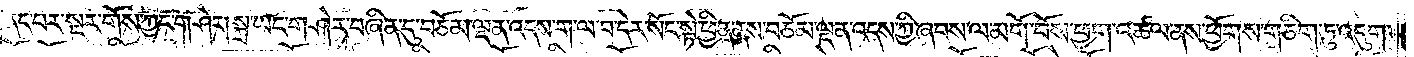ནང་པར་སྔར་གོས་ཀྱང་གཤེར་།སྐྲ་ཡང་གཤེར་བཞིན་དུ་བཅོམ་ལྡན་འདས་ག་ལ་བ་དེར་སོང་སྟེ་ཕྱིན་ནས་བཅོམ་ལྡན་འདས་ཀྱི་ཞབས་ལ་མགོ་བོས་ཕྱག་འཚལ་ནས་ཕྱོགས་གཅིག་ཏུ་འདུག་
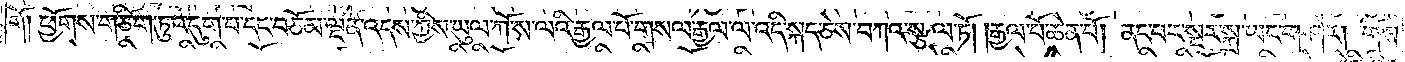གོ། ཕྱོགས་གཅིག་ཏུ་འདུག་པ་དང་བཅོམ་ལྡན་འདས་ཀྱིས་ཡུལ་ཀོ་ས་ལའི་རྒྱལ་པོ་གསལ་རྒྱལ་ལ་འདི་སྐད་ཅེས་བཀའ་སྩལ་ཏོ། །རྒྱལ་པོ་ཆེན་པོ། ནང་པར་སྔར་སྐྲ་ཡང་གཤེར། གོས་
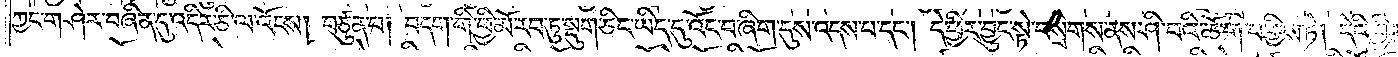ཀྱང་གཤེར་བཞིན་དུ་འདིར་ཅི་ལ་འོངས། བཙུན་པ། བདག་གི་ཕྱི་མོ་རབ་ཏུ་སྡུག་ཅིང་ཡིད་དུ་འོང་བ་ཞིག་དུས་འདས་པ་དང༌། དེ་ཕྱིར་བྱུང་སྟེ་བསྲེགས་ནས་ཤི་བའི་ཆོ་ག་བགྱིས་ཏེ། དེའི་ཕྱིར་
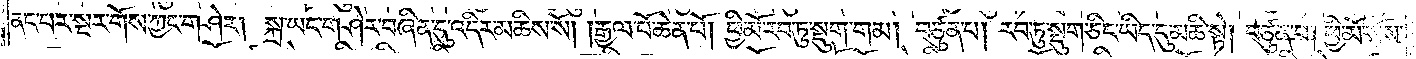ནང་པར་སྔར་གོས་ཀྱང་གཤེར་།སྐྲ་ཡང་གཤེར་བཞིན་དུ་འདིར་མཆིས་སོ། །རྒྱལ་པོ་ཆེན་པོ། ཕྱི་མོ་རབ་ཏུ་སྡུག་གམ། བཙུན་པ། རབ་ཏུ་སྡུག་ཅིང་ཡིད་དུ་མཆི་སྟེ། བཙུན་པ། ཕྱི་མོ་སོས་
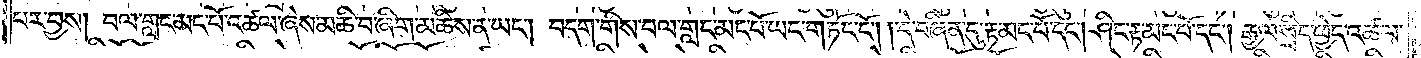པར་བྱས། བལ་གླང་མང་པོ་འཚལ་ཞེས་མཆི་བ་ཞིག་མཆིས་ན་ཡང༌། བདག་གིས་བལ་གླང་མང་པོ་ཡང་གཏོང་ངོ༌། །དེ་བཞིན་དུ་རྟ་མང་པོ་དང༌། ཤིང་རྟ་མང་པོ་དང༌། རྒྱལ་སྲིད་ཕྱེད་འཚལ་
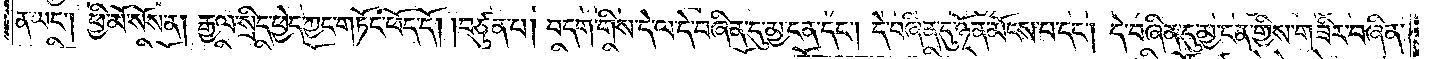ན་ཡང༌། ཕྱི་མོ་སོས་ན། རྒྱལ་སྲིད་ཕྱེད་ཀྱང་གཏོང་ཕོད་དོ། །བཙུན་པ། བདག་གིས་དེ་ལ་དེ་བཞིན་དུ་མྱ་ངན་དང༌། དེ་བཞིན་དུ་ཉོན་མོངས་པ་དང༌། དེ་བཞིན་དུ་མྱ་ངན་གྱིས་གཟིར་བཞིན་
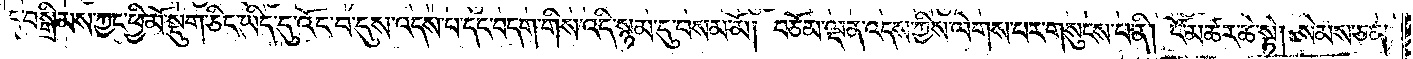དུ་བསྒྲིམས་ཀྱང་ཕྱི་མོ་སྡུག་ཅིང་ཡིད་དུ་འོང་བ་དུས་འདས་པ་དང་བདག་གིས་འདི་སྙམ་དུ་བསམ་མོ། བཅོམ་ལྡན་འདས་ཀྱིས་ལེགས་པར་གསུངས་པ་ནི། ངོ་མཚར་ཆེ་སྟེ། སེམས་ཅན་
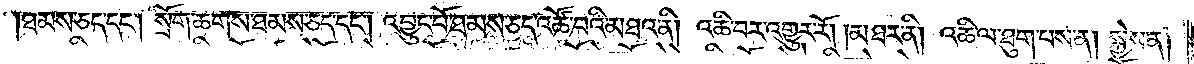ཐམས་ཅད་དང༌། སྲོག་ཆགས་ཐམས་ཅད་དང༌། འབྱུང་པོ་ཐམས་ཅད་འཚོ་བའི་མཐའ་ནི། འཆི་བར་འགྱུར་རོ། །མཐར་ནི། འཆི་ལ་ཐུག་པས་ན། སྐྱེས་ན།
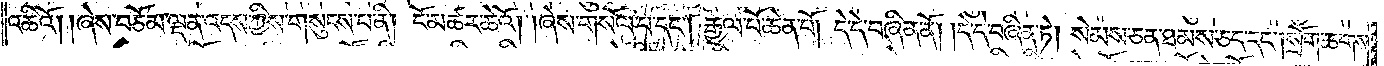འཆིའོ། །ཞེས་བཅོམ་ལྡན་འདས་ཀྱིས་གསུངས་པ་ནི། ངོ་མཚར་ཆེའོ། །ཞེས་གསོལ་པ་དང༌། རྒྱལ་པོ་ཆེན་པོ། དེ་དེ་བཞིན་ནོ། །དེ་དེ་བཞིན་ཏེ། སེམས་ཅན་ཐམས་ཅད་དང༌། སྲོག་ཆགས་
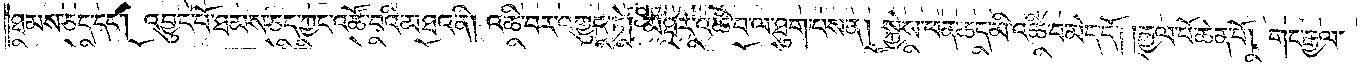ཐམས་ཅད་དང༌། འབྱུང་པོ་ཐམས་ཅད་ཀྱང་འཚོ་བའི་མཐའ་ནི། འཆི་བར་འགྱུར་ཏེ། མཐར་འཆི་བ་ལ་ཐུག་པས་ན། སྐྱེས་ཕན་ཆད་མི་འཆི་བ་མེད་དོ། །རྒྱལ་པོ་ཆེན་པོ། གང་རྒྱལ་
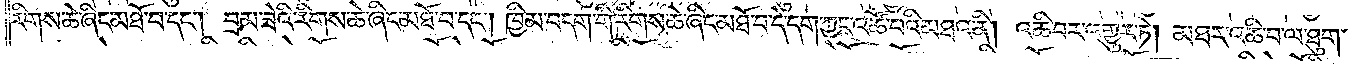རིགས་ཆེ་ཞིང་མཐོ་བ་དང༌། བྲམ་ཟེའི་རིགས་ཆེ་ཞིང་མཐོ་བ་དང༌། ཁྱིམ་བདག་གི་རིགས་ཆེ་ཞིང་མཐོ་བ་དེ་དག་ཀྱང་འཚོལ་བའི་མཐའ་ནི། འཆི་བར་འགྱུར་ཏེ། མཐར་འཆི་བ་ལ་ཐུག་
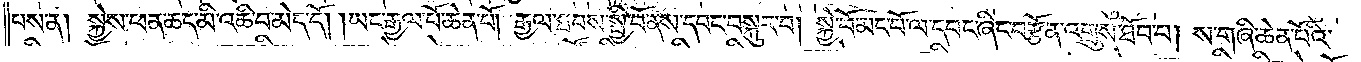པས་ན། སྐྱེས་ཕན་ཆད་མི་འཆི་བ་མེད་དོ། །ཡང་རྒྱལ་པོ་ཆེན་པོ། རྒྱལ་ཐབས་སྤྱི་བོ་ནས་དབང་བསྐུར་བ། སྐྱེ་བོ་མང་པོ་ལ་དབང་ཞིང་བརྩོན་འགྲུས་ཐོབ་པ། ས་གཞི་ཆེན་པོའི་
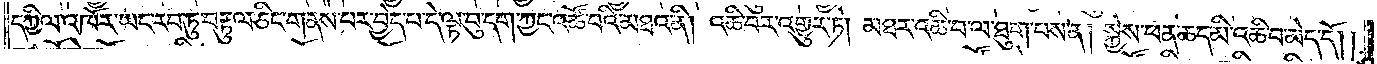དཀྱིལ་འཁོར་ཡང་རབ་ཏུ་བརྟུལ་ཅིང་གནས་པར་བྱེད་པ་དེ་ལྟ་བུ་དག་ཀྱང་འཚོ་བའི་མཐའ་ནི། འཆི་བར་འགྱུར་ཏེ། མཐར་འཆི་བ་ལ་ཐུག་པས་ན། སྐྱེས་ཕན་ཆད་མི་འཆི་བ་མེད་དོ། །
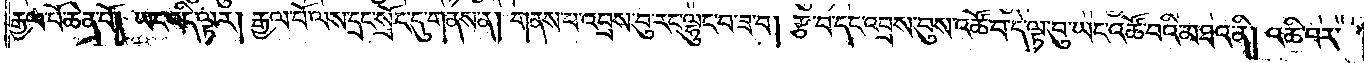རྒྱལ་པོ་ཆེན་པོ། ཡང་འདི་ལྟར། རྒྱལ་པོ་ལས་དྲང་སྲོང་དུ་གནས་ན། གནས་པ་འབྲས་བུ་རང་ལྷུང་བ་ཟ་བ། རྩ་བ་དང་འབྲས་བུས་འཚོ་བ་དེ་ལྟ་བུ་ཡང་འཚོ་བའི་མཐའ་ནི། འཆི་བར་
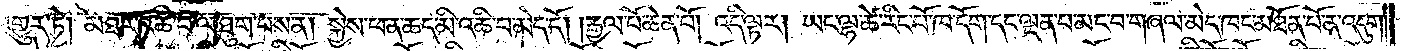འགྱུར་ཏེ། མཐར་འཆི་བ་ལ་ཐུག་པས་ན། སྐྱེས་ཕན་ཆད་མི་འཆི་བ་མེད་དོ། །རྒྱལ་པོ་ཆེན་པོ། འདི་ལྟར། ཡང་ལྷ་ཚེ་རིང་པོ་ཁ་དོག་དང་ལྡན་པ་མང་བ་གཞལ་མེད་ཁང་མཐོན་པོ་ན་འདུག་
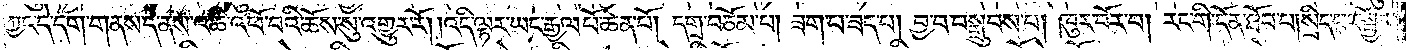ཀྱང་དེ་དག་གནས་དེ་ནས་འཆི་འཕོ་བའི་ཆོས་སུ་འགྱུར་རོ། །འདི་ལྟར་ཡང་རྒྱལ་པོ་ཆེན་པོ། དགྲ་བཅོམ་པ། ཟག་པ་ཟད་པ། བྱ་བ་བསྒྲུབས་པ། ཁུར་བོར་བ། རང་གི་དོན་ཐོབ་པ། སྲིད་པར་སྦྱོར་
